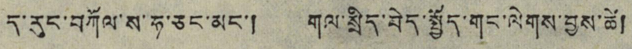ད་རུང་བཀོལ་ས་ཧ་ཅང་མང་། གལ་སྲིད་བེད་སྤྱོད་གང་ལེགས་བྱས་ཚེ།
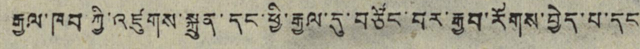རྒྱལ་ཁབ་ཀྱི་འཛུགས་སྐྲུན་དང་ཕྱི་རྒྱལ་དུ་བཙོང་བར་རྒྱབ་རོགས་བྱེད་པ་དང་
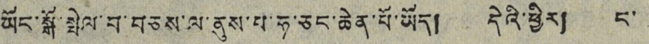ཡོང་སྒོ་སྤེལ་བ་བཅས་ལ་ནུས་པ་ཧ་ཅང་ཆེན་པོ་ཡོད། དེའི་ཕྱིར། ང་
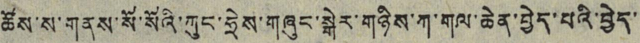ཚོས་ས་གནས་སོ་སོའི་ཀུང་ཧྲེས་གཞུང་སྒེར་གཉིས་ཀ་གལ་ཆེན་བྱེད་པའི་བྱེད་
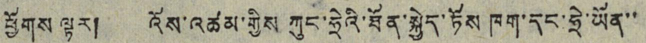ཕྱོགས ལྟར། འོས་འཚམ་གྱིས ཀུང་ཧྲེའི་ཐོན་སྐྱེད་ཏོས ཁག་དང་ཧྲེ་ཡོན་་
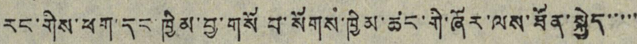རང་གིས་ཕག་དང་ཁྱིམ་བྱ་གསོ བ་སོགས་ཁྱིམ་ཚང་གི་ཞོར་ལས་ཐོན་སྐྱེད་་་་་
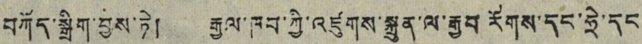བཀོད་སྒྲིག་བྱས་ཏེ། རྒྱལ་ཁབ་ཀྱི་འཛུགས་སྐྲུན་ལ་རྒྱབ རོགས་དང་ཧྲེ་དང
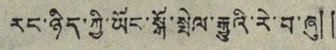རང་ཉིད་ཀྱི་ཡོང་སྒོ་སྤེལ་རྒྱུའི་རེ་བ་ཞུ།།
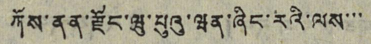ཀོས་ནན་རྫོང་ཝུ་པུའུ་ཝན་ཞིང་རའི་ལས་་་་
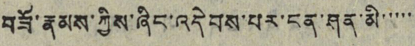བཟོ་རྣམས་ཀྱིས་ཞིང་འདེབས་པར་ངན་ཤན་མི་་་་་
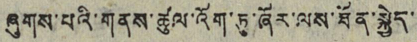ཞུགས་པའི་གནས་ཚུལ་འོག་ཏུ་ཞོར་ལས་ཐོན་སྐྱེད་
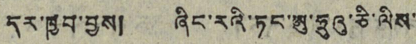དར་ཁྱབ་བྱས། ཞིང་རའི་ཏང་ཨུ་ཧྲུའུ་ཅི་ལིས་
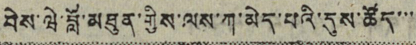བེས་ཝེ་བློ་མཐུན་གྱིས་ལས་ཀ་མེད་པའི་དུས་ཚོད་་་
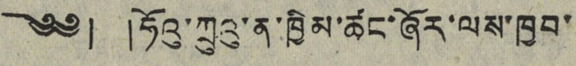༄༅། །ཧོའུ་ཀྲུའུ་ན་ཁྱིམ་ཚང་ཞོར་ལས་ཁྱབ་
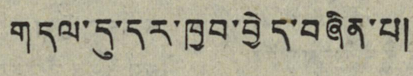གདལ་དུ་དར་ཁྱབ་བྱེད་བཞིན་པ།
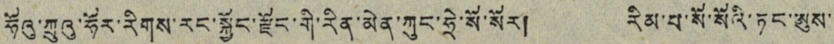ཧོའུ་ཀྲུའུ་ཧོར་རིགས་རང་སྐྱོང་རྫོང་གི་རིན་མེན་ཀུང་ཧྲེ་སོ་སོར། རིམ་པ་སོ་སོའི་ཏང་ཨུས་
